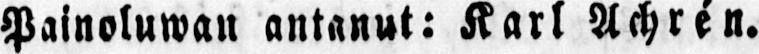Painoluwan antanut: Karl Achrén.
